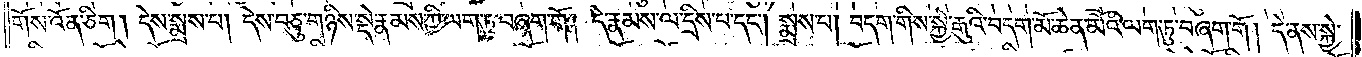གོས་འོན་ཅིག །དེས་སྨྲས་པ། དེས་བཅུ་གཉིས་སྡེ་རྣམས་ཀྱི་ལག་ཏུ་བཞག་གོ། །དེ་རྣམས་ལ་དྲིས་པ་དང༌། སྨྲས་པ། བདག་གིས་སྐྱེ་རྒུའི་བདག་མོ་ཆེན་མོའི་ལག་ཏུ་བཞག་གོ། དེ་ནས་སྐྱེ་
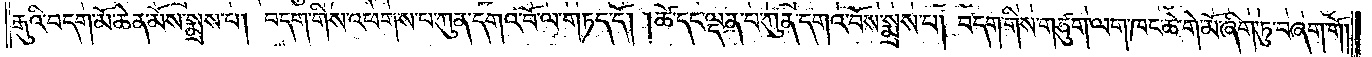རྒུའི་བདག་མོ་ཆེན་མོས་སྨྲས་པ། བདག་གིས་འཕགས་པ་ཀུན་དགའ་བོ་ལ་གཏད་དོ། །ཚེ་དང་ལྡན་པ་ཀུན་དགའ་བོས་སྨྲས་པ། བདག་གིས་གཙུག་ལག་ཁང་ཆེ་གེ་མོ་ཞིག་ཏུ་བཞག་གོ་
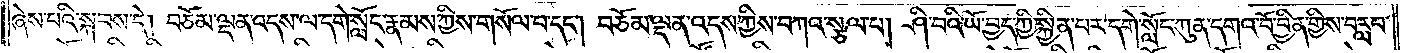ཞེས་པའི་སྐབས་དེ། བཅོམ་ལྡན་འདས་ལ་དགེ་སློང་རྣམས་ཀྱིས་གསོལ་པ་དང༌། བཅོམ་ལྡན་འདས་ཀྱིས་བཀའ་སྩལ་པ། ཤི་བའི་ཡོ་བྱད་ཀྱི་སྐྱིན་པར་དགེ་སློང་ཀུན་དགའ་བོ་བྱིན་གྱིས་བརླབ་
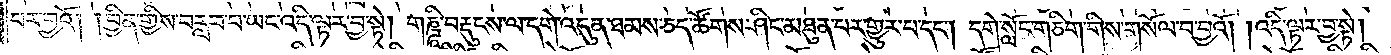པར་བྱའོ། །བྱིན་གྱིས་བརླབ་པ་ཡང་འདི་ལྟར་བྱ་སྟེ། གཎྜཱི་བརྡུངས་ལ་དགེ་འདུན་ཐམས་ཅད་ཚོགས་ཤིང་མཐུན་པར་གྱུར་པ་དང༌། དགེ་སློང་གཅིག་གིས་གསོལ་བ་བྱའོ། །འདི་ལྟར་བྱ་སྟེ།
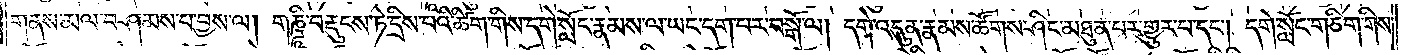གནས་མལ་བཤམས་པ་བྱས་ལ། གཎྜཱི་བརྡུངས་ཏེ་དྲིས་པའི་ཚིག་གིས་དགེ་སློང་རྣམས་ལ་ཡང་དག་པར་བསྒོ་ལ། དགེ་འདུན་རྣམས་ཚོགས་ཤིང་མཐུན་པར་གྱུར་པ་དང༌། དགེ་སློང་གཅིག་གིས་
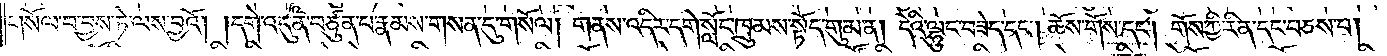གསོལ་བ་བྱས་ཏེ་ལས་བྱའོ། །དགེ་འདུན་བཙུན་པ་རྣམས་གསན་དུ་གསོལ། གནས་འདིར་དགེ་སློང་ཁྲུམས་སྟོད་གུམ་ན། དེའི་ལྷུང་བཟེད་དང༌། ཆོས་གོས་དང༌། གོས་ཀྱི་རིན་དང་བཅས་པ།
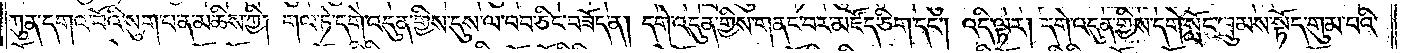ཀུན་དགའ་བོའི་སུག་བ་ན་མཆིས་ཀྱི། གལ་ཏེ་དགེ་འདུན་གྱིས་དུས་ལ་བབ་ཅིང་བཟོད་ན། དགེ་འདུན་གྱིས་གནང་བར་མཛོད་ཅིག་དང༌། འདི་ལྟར། དགེ་འདུན་གྱིས་དགེ་སློང་ཁྲུམས་སྟོད་གུམ་པའི་
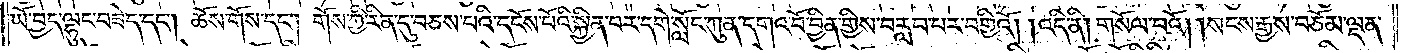ཡོ་བྱད་ལྷུང་བཟེད་དང༌། ཆོས་གོས་དང༌། གོས་ཀྱི་རིན་དུ་བཅས་པའི་དངོས་པོའི་སྐྱིན་པར་དགེ་སློང་ཀུན་དགའ་བོ་བྱིན་གྱིས་བརླབ་པར་བགྱིའོ། །འདི་ནི། གསོལ་བའོ། །སངས་རྒྱས་བཅོམ་ལྡན་
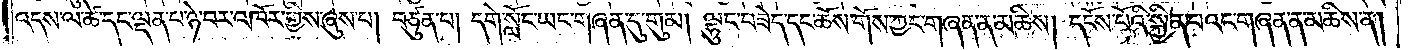འདས་ལ་ཚེ་དང་ལྡན་པ་ཉེ་བར་འཁོར་གྱིས་ཞུས་པ། བཙུན་པ། དགེ་སློང་ཡང་གཞན་དུ་གུམ། ལྷུང་བཟེད་དང་ཆོས་གོས་ཀྱང་གཞན་ན་མཆིས། དངོས་པོའི་སྐྱིན་པའང་གཞན་ན་མཆིས་ན།
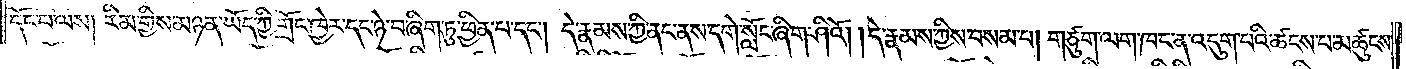དོང་བ་ལས། རིམ་གྱིས་མཉན་ཡོད་ཀྱི་གྲོང་ཁྱེར་དང་ཉེ་བ་ཞིག་ཏུ་ཕྱིན་པ་དང༌། དེ་རྣམས་ཀྱི་ནང་ནས་དགེ་སློང་ཞིག་ཤིའོ། །དེ་རྣམས་ཀྱིས་བསམ་པ། གཙུག་ལག་ཁང་ན་འདུག་པའི་ཚངས་པ་མཚུངས་
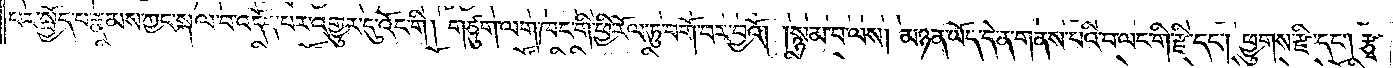པར་སྤྱོད་པ་རྣམས་ཀྱང་སྐལ་པ་འདོད་པར་འགྱུར་དུ་འོང་གི། གཙུག་ལག་ཁང་གི་ཕྱི་རོལ་ཏུ་བགོ་བར་བྱའོ། །སྙམ་པ་ལས། མཉན་ཡོད་དེ་ན་གནས་པའི་བ་ལང་གི་རྫི་དང༌། ཕྱུགས་རྫི་དང༌། རྩྭ་
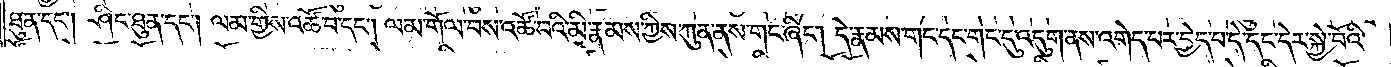ཐུན་དང༌། ཤིང་ཐུན་དང༌། ལམ་གྱིས་འཚོ་བ་དང༌། ལམ་གོལ་བས་འཚོ་བའི་མི་རྣམས་ཀྱིས་ཀུན་ནས་གང་ཞིང༌། དེ་རྣམས་གང་དང་གང་དུ་འདུག་ནས་འགེད་པར་བྱེད་པ་དེ་དང་དེར་སྐྱེ་བོའི་
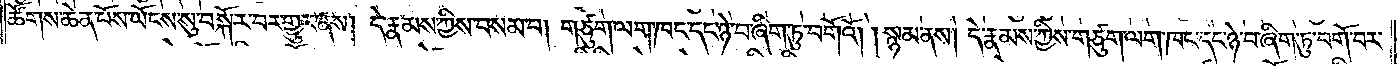ཚོགས་ཆེན་པོས་ཡོངས་སུ་བསྐོར་བར་གྱུར་ནས། དེ་རྣམས་ཀྱིས་བསམ་པ། གཙུག་ལག་ཁང་དང་ཉེ་བ་ཞིག་ཏུ་བགོའོ། །སྙམ་ནས། དེ་རྣམས་ཀྱིས་གཙུག་ལག་ཁང་དང་ཉེ་བ་ཞིག་ཏུ་བགོ་བར་
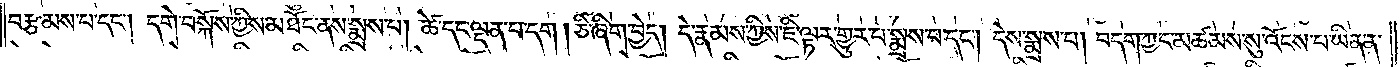བརྩམས་པ་དང༌། དགེ་བསྐོས་ཀྱིས་མཐོང་ནས་སྨྲས་པ། ཚེ་དང་ལྡན་པ་དག །ཅི་ཞིག་བྱེད། དེ་རྣམས་ཀྱིས་ཇི་ལྟར་གྱུར་བ་སྨྲས་པ་དང༌། དེས་སྨྲས་པ། བདག་ཀྱང་མཚམས་སུ་འོངས་པ་ཡིན་ན་
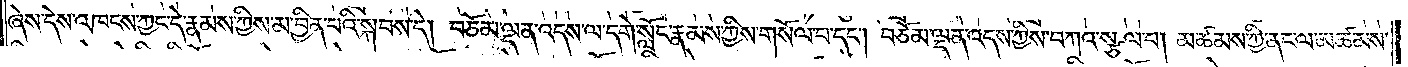ཞེས་དེས་འཁངས་ཀྱང་དེ་རྣམས་ཀྱིས་མ་བྱིན་པའི་སྐབས་དེ། བཅོམ་ལྡན་འདས་ལ་དགེ་སློང་རྣམས་ཀྱིས་གསོལ་བ་དང༌། བཅོམ་ལྡན་འདས་ཀྱིས་བཀའ་སྩལ་པ། མཚམས་ཀྱི་ནང་ལ་མཚམས་
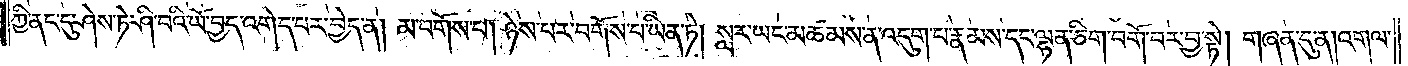ཀྱི་ནང་དུ་ཤེས་ཏེ་ཤི་བའི་ཡོ་བྱད་འགེད་པར་བྱེད་ན། མ་བགོས་པ། ཉེས་པར་བགོས་པ་ཡིན་ཏེ། སླར་ཡང་མཚམས་ན་འདུག་པ་རྣམས་དང་ལྷན་ཅིག་བགོ་བར་བྱ་སྟེ། གཞན་དུ་ན། འགལ་
